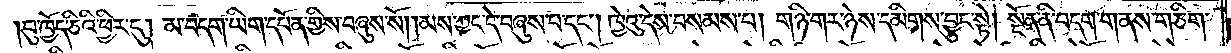བུ་ཁྱོད་ཅིའི་ཕྱིར་དུ། མ་བདག་ཡིག་དཔོན་གྱིས་བཞུས་སོ། །མས་ཀྱང་དེ་བཞུས་བ་དང༌། ཁྱེའུ་དེས་བསམས་པ། གཉི་གར་ཉེས་དམིགས་བྱུང་སྟེ། སྔོན་ནི་བདག་གནས་གཅིག་
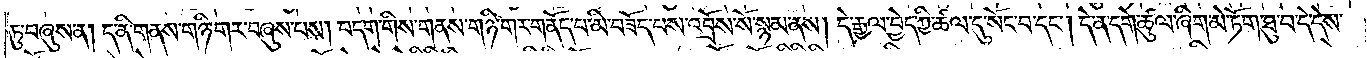ཏུ་བཞུས་ན། ད་ནི་གནས་གཉི་གར་བཞུས་པས། བདག་གིས་གནས་གཉི་གར་གནོད་པ་མི་བཟོད་པས་འབྲོས་སོ་སྙམ་ནས། དེ་རྒྱལ་བྱེད་ཀྱི་ཚལ་དུ་སོང་བ་དང༌། དེ་ན་དགེ་ཚུལ་ཞིག་མེ་ཏོག་ཐུ་བ་དེ་དེས་
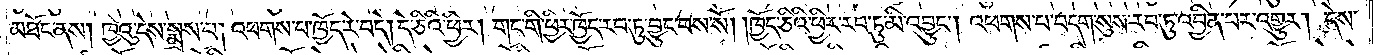མཐོང་ནས། ཁྱེའུ་དེས་སྨྲས་པ། འཕགས་པ་ཁྱོད་རེ་བདེ། དེ་ཅིའི་ཕྱིར། གང་གི་ཕྱིར་ཁྱོད་རབ་ཏུ་བྱུང་བས་སོ། །ཁྱོད་ཅིའི་ཕྱིར་རབ་ཏུ་མི་འབྱུང༌། འཕགས་པ་བདག་སུས་རབ་ཏུ་འབྱིན་པར་འགྱུར། དེས་
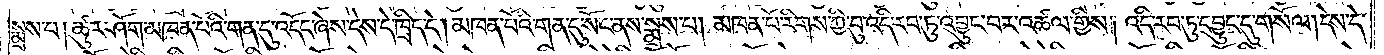སྨྲས་པ། ཚུར་ཤོག་མཁན་པོའི་གན་དུ་འདོང་ཞེས་དེས་དེ་ཁྲིད་དེ། མཁན་པོའི་གན་དུ་སོང་ནས་སྨྲས་པ། མཁན་པོ་རིགས་ཀྱི་བུ་འདི་རབ་ཏུ་འབྱུང་བར་འཚལ་གྱིས། འདི་རབ་ཏུ་དབྱུང་དུ་གསོལ།དེས་དེ་
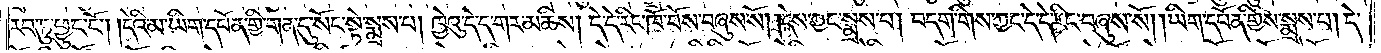རབ་ཏུ་ཕྱུང་ངོ༌། །དེའི་མ་ཡིག་དཔོན་གྱི་གན་དུ་སོང་སྟེ་སྨྲས་པ། ཁྱེའུ་དེ་ད་གར་མཆིས། དེ་དེ་རིང་ཁོ་བོས་བཞུས་སོ། །དེས་ཀྱང་སྨྲས་པ། བདག་གིས་ཀྱང་དེ་དེ་རིང་བཞུས་སོ། །ཡིག་དཔོན་གྱིས་སྨྲས་པ། དེ་
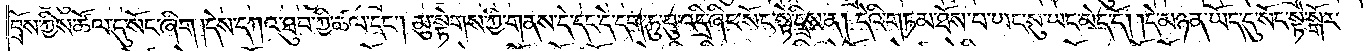བྲོས་ཀྱིས་ཚོལ་དུ་སོང་ཞིག །དེས་དཀའ་ཐུབ་ཀྱི་ཚལ་དང༌། མུ་སྟེགས་ཀྱི་གནས་དེ་དང་དེ་དག་ཏུ་བུ་འདྲི་ཞིང་སོང་སྟེ་དྲིས་ན། དེའི་གཏམ་ཐོས་པ་ཡང་སུ་ཡང་མེད་དོ། །དེ་མཉན་ཡོད་དུ་སོང་སྟེ་སྒོར་
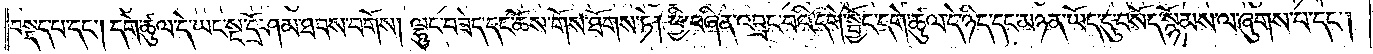བསྡད་པ་དང༌། དགེ་ཚུལ་དེ་ཡང་སྔ་དྲོ་ཤམ་ཐབས་བགོས། ལྷུང་བཟེད་དང་ཆོས་གོས་ཐོགས་ཏེ། ཕྱི་བཞིན་འབྲང་བའི་དགེ་སྦྱོང་དགེ་ཚུལ་དེ་ཉིད་དང་མཉན་ཡོད་དུ་བསོད་སྙོམས་ལ་ཞུགས་པ་དང༌།
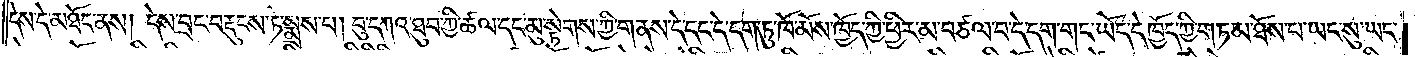དེས་དེ་མཐོང་ནས། དེས་བྲང་བརྡུངས་ཏེ་སྨྲས་པ། བུ་དཀའ་ཐུབ་ཀྱི་ཚལ་དང་མུ་སྟེགས་ཀྱི་གནས་དེ་དང་དེ་དག་ཏུ་ཁོ་མོས་ཁྱོད་ཀྱི་ཕྱིར་མ་བཙལ་བ་དེ་དག་གང་ཡོད་དེ་ཁྱོད་ཀྱི་གཏམ་ཐོས་པ་ཡང་སུ་ཡང་
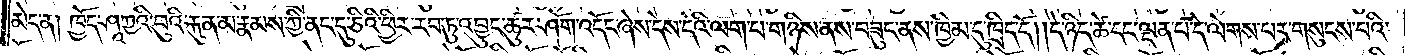མེད་ན། ཁྱོད་ཤཱཀྱའི་བུའི་རྐུན་མ་རྣམས་ཀྱི་ནང་དུ་ཅིའི་ཕྱིར་རབ་ཏུ་འབྱུང་ཚུར་ཤོག་འདོང་ཞེས་དེས་དེའི་ལག་པ་གཉིས་ནས་བཟུང་ནས་ཁྱིམ་དུ་ཁྲིད་དོ། །དེ་ཉིད་ཚེ་དང་ལྡན་པ་དེ་ལེགས་པར་གསུངས་པའི་
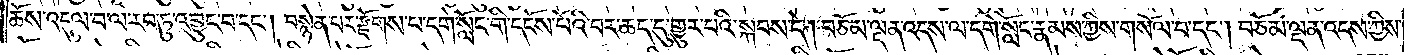ཆོས་འདུལ་བ་ལ་རབ་ཏུ་འབྱུང་བ་དང༌། བསྙེན་པར་རྫོགས་པ་དགེ་སློང་གི་དངོས་པོའི་བར་ཆད་དུ་གྱུར་པའི་སྐབས་དེ། བཅོམ་ལྡན་འདས་ལ་དགེ་སློང་རྣམས་ཀྱིས་གསོལ་བ་དང༌། བཅོམ་ལྡན་འདས་ཀྱིས་
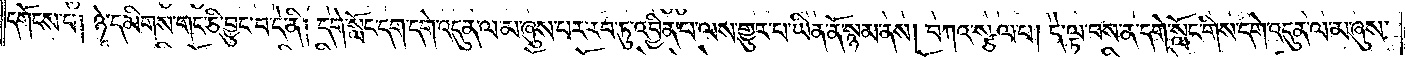དགོངས་པ། ཉེ་དམིགས་གང་ཅི་བྱུང་བ་དེ་ནི། དགེ་སློང་དག་དགེ་འདུན་ལ་མ་ཞུས་པར་རབ་ཏུ་འབྱིན་པ་ལས་གྱུར་པ་ཡིན་ནོ་སྙམ་ནས། བཀའ་སྩལ་པ། དེ་ལྟ་བས་ན་དགེ་སློང་གིས་དགེ་འདུན་ལ་མ་ཞུས་
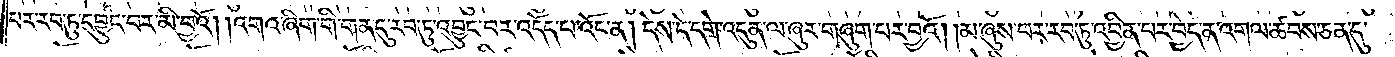པར་རབ་ཏུ་དབྱུང་བར་མི་བྱའོ། །འགའ་ཞིག་གི་གན་དུ་རབ་ཏུ་འབྱུང་བར་འདོད་པ་འོང་ན། དེས་དེ་དགེ་འདུན་ལ་ཞུར་གཞུག་པར་བྱའོ། །མ་ཞུས་པར་རབ་ཏུ་འབྱིན་པར་བྱེད་ན་འགལ་ཚབས་ཅན་དུ་
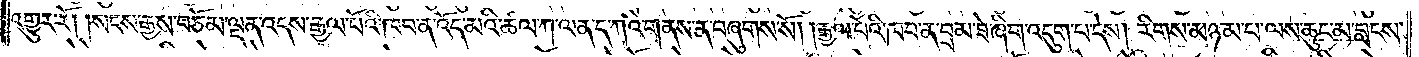འགྱུར་རོ། །སངས་རྒྱས་བཅོམ་ལྡན་འདས་རྒྱལ་པོའི་ཁབ་ན་འོད་མའི་ཚལ་ཀ་ལན་དཀའ་གནས་ན་བཞུགས་སོ། །རྒྱལ་པོའི་ཁབ་ན་བྲམ་ཟེ་ཞིག་འདུག་པ་དེས། རིགས་མཉམ་པ་ལས་ཆུང་མ་བླངས་
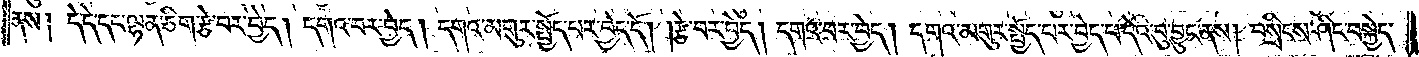ནས། དེ་དེ་དང་ལྷན་ཅིག་རྩེ་བར་བྱེད། དགའ་བར་བྱེད། དགའ་མགུར་སྤྱོད་པར་བྱེད་དོ། །རྩེ་བར་བྱེད། དགའ་བར་བྱེད། དགའ་མགུར་སྤྱོད་པར་བྱེད་པ་དེའི་བུ་བྱུང་ནས། བསྲིངས་ཤིང་བསྐྱེད་
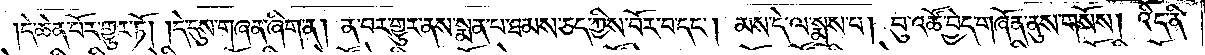།དེ་ཆེན་པོར་གྱུར་ཏོ། །དེ་དུས་གཞན་ཞིག་ན། ན་བར་གྱུར་ནས་སྨན་པ་ཐམས་ཅད་ཀྱིས་བོར་བ་དང༌། མས་དེ་ལ་སྨྲས་པ། བུ་འཚོ་བྱེད་གཞོན་ནུས་གསོས། འདི་ནི་
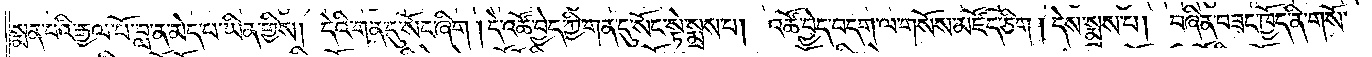སྨན་པའི་རྒྱལ་པོ་བླ་ན་མེད་པ་ཡིན་གྱིས། དེའི་གན་དུ་སོང་ཞིག །དེ་འཚོ་བྱེད་ཀྱི་གན་དུ་སོང་སྟེ་སྨྲས་པ། འཚོ་བྱེད་བདག་ལ་གསོས་མཛོད་ཅིག། དེས་སྨྲས་པ། བཞིན་བཟང་ཁྱོད་ནི་གསོ་
